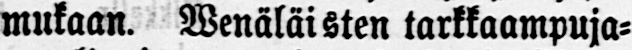mukaan. Wenäläisten tarkkaampuja-
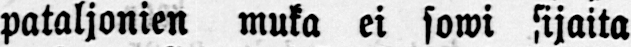pataljonien muka ei sowi sijaita
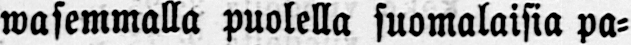wasemmalla puolella suomalaisia pa-
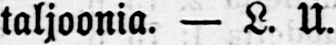taljoonia. — L. U.
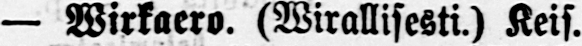— Wirkaero. (Wirallisesti.) Keis.
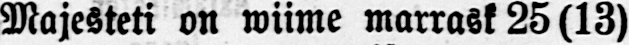Majeateti on wiime marrask 25(13)
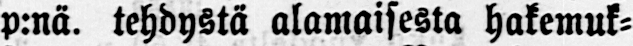p:nä. tehdystä alamaisesta hakemuk-
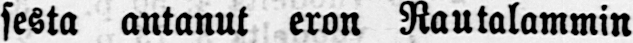sesta antanut eron Rautalammin
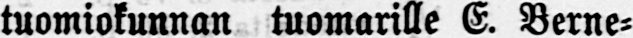tuomiokunnan tuomarille E. Berne-
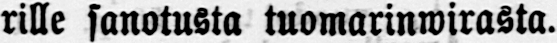rille sanotusta tuomarinwirasta.
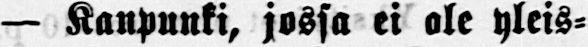— Kaupunki, jossa ei ole yleis-
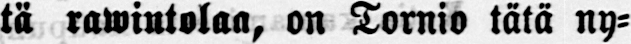tä rawintolaa, on Tornio tätä ny-
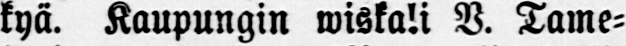kyä. Kaupungin wiskali V. Tame-
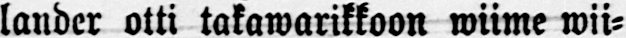lander otti takawarikkoon wiime wii-
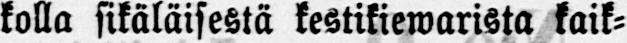kalla sikäläisestä kestikiewarista kaik-
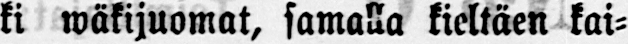ki wäkijuomat, samalla kieltäen kai-
